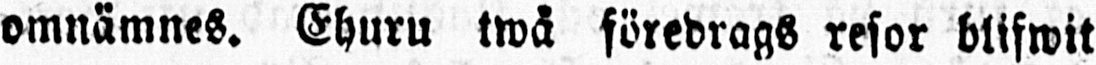omnämnes. Ehuru twå föredrags resor blifwit
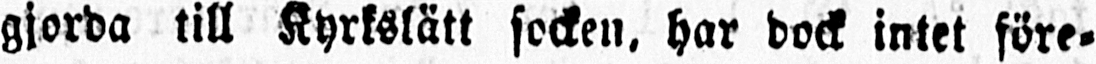gjorda till Kyrkslätt socken, har dock intet före-
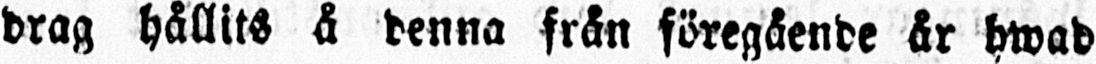drag hållits å denna från föregående år hwad
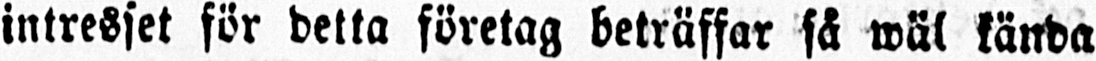intresset för detta företag beträffar så wäl kända
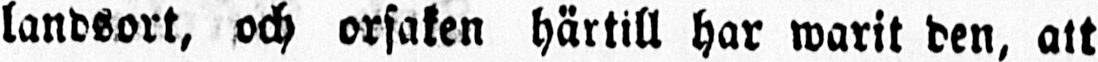landsort, och orsaken härtill har warit den, att
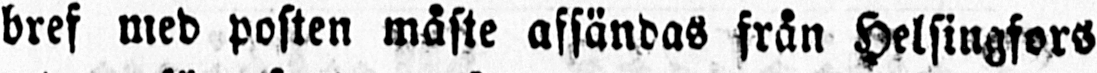bref med posten måste afsändas från Helsingfors
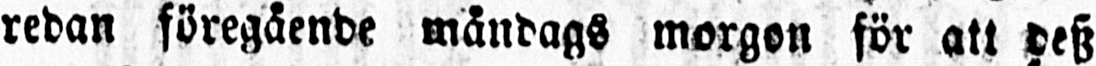redan föregående måndags morgon för att desz
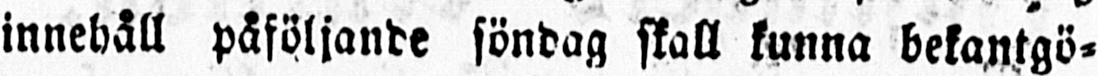innehåll påföljande söndag skall kunna bekantgö-
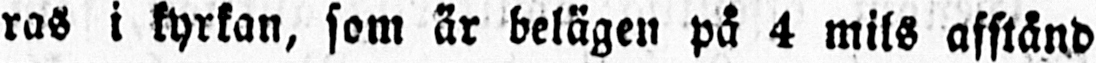ras i kyrkan, som är belägen på 4 mils afstånd
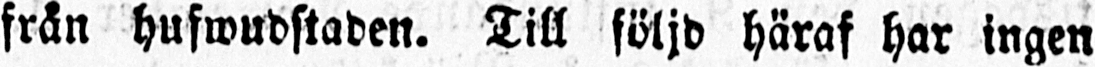från hufwudstaden. Till följd häraf har ingen
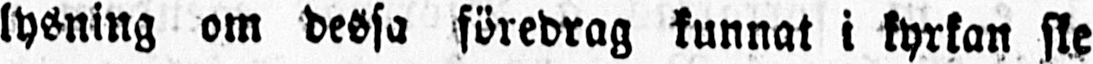lysning om dessa föredrag kunnat i kyrkan ske
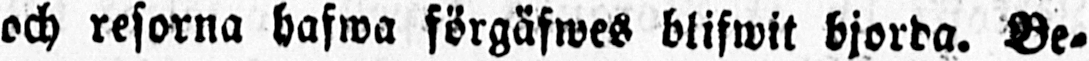och resorna hafwa förgäfwes blifwit bjorda. Be-
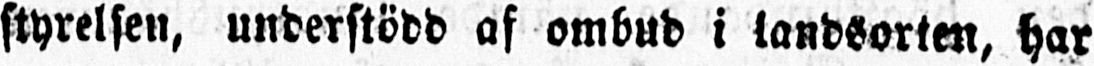styrelsen, understödd af ombud i landsorten, har
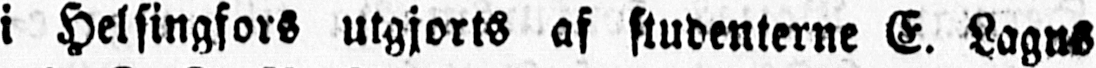i Helsingfors utgjorts af studenterne E. Lagus
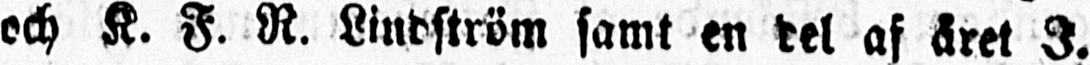och K. F. R. Lindström samt en del af året I.
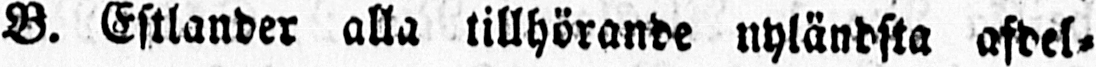B. Estlander alla tillhörande nyländska afdel-
